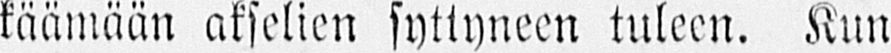käämään akselien syttyneen tuleen. Kum
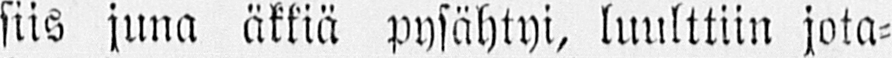siis juna äkkiä pysähtyi, luulttiin jota-
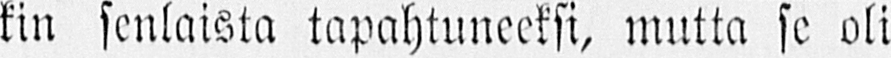kin senlaista tapahtuneeksi, mutta se oli
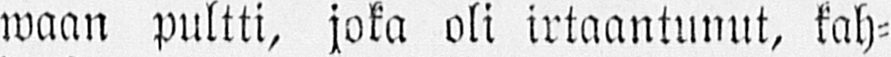waan pultti, joka oli irtaantunut, kah-
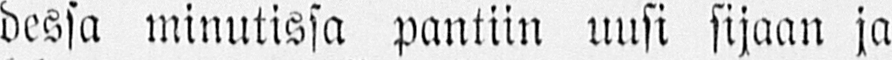dessa minutissa pantiin uusi sijaan ja
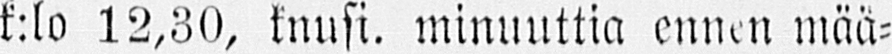k:lo 12,30, knusi, minuuttia ennen mää-
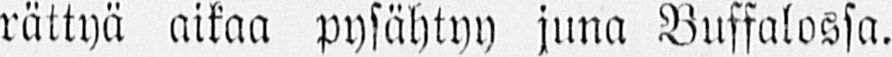rättyä aikaa pysähtyy juna Buffalossa.
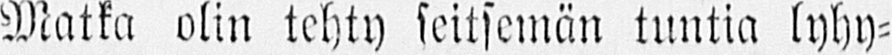Matka olin tehty seitsemän tuntia lyhy-
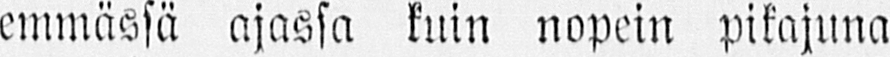emmässä ajassa kuin nopein pikajuna
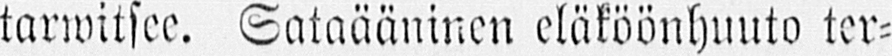tarwitsee. Sataääninen eläköönhuuto ter-
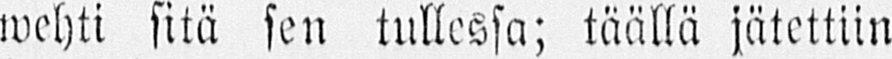wehti sitä sen tullessa; täällä jätettiin
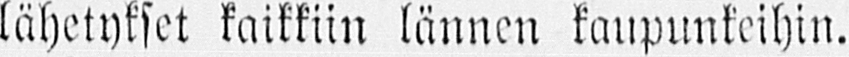lähetykset kaikkiin lännen kaupunkeihin.
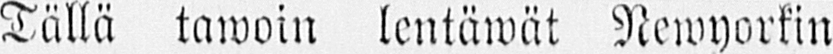Tällä tawoin lentäwät Newyorkin
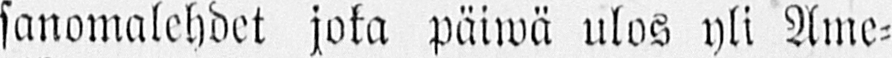sanomalehdet joka päiwä ulos yli Ame-
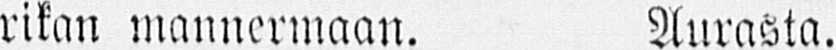rikan mannermaan. Aurasta.
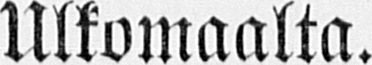Ulkomaalta.
